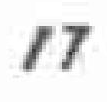17
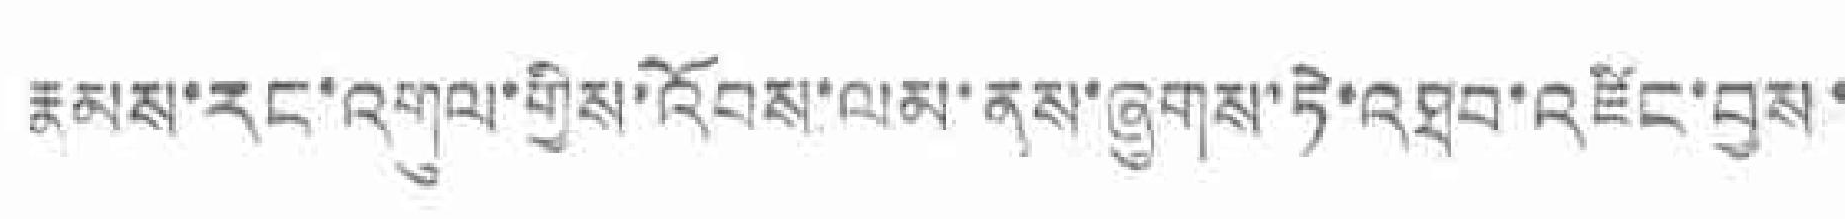རྣམས་རང་འགུལ་གྱིས་འོབས་ལམ་ནས་ཞུགས་ཏེ་འཐབ་འཛོང་བྱས་
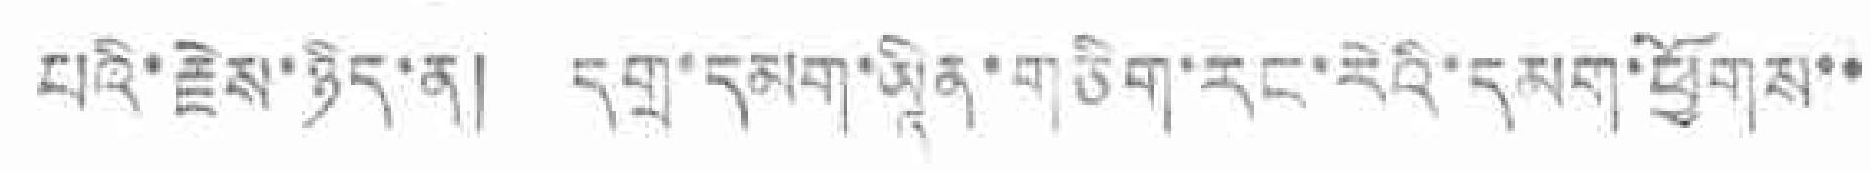པའི་རྗེས་ཉེད་ན། དགྲ་དམག་ཡཱིན་གཅིག་རང་རེའི་དམག་ཕྱོགས་་
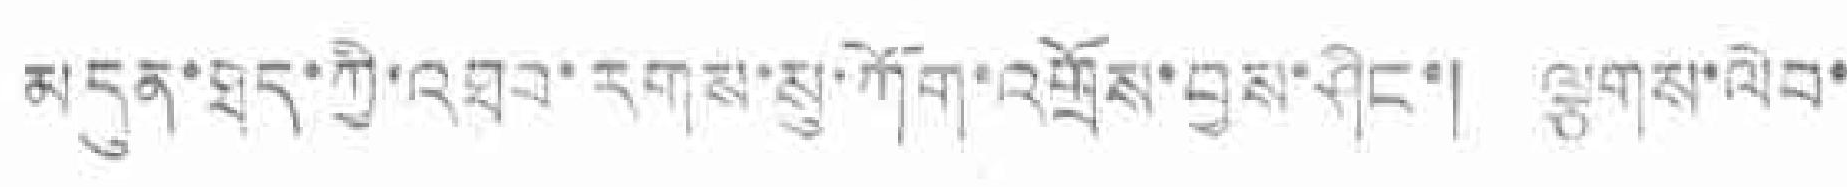མདུན་ཐད་ཀྱི་འཐག་རགས་སུ་ཀོག་འགྲོས་བྱས་ཤིང་། ལྕགས་ལེབ་
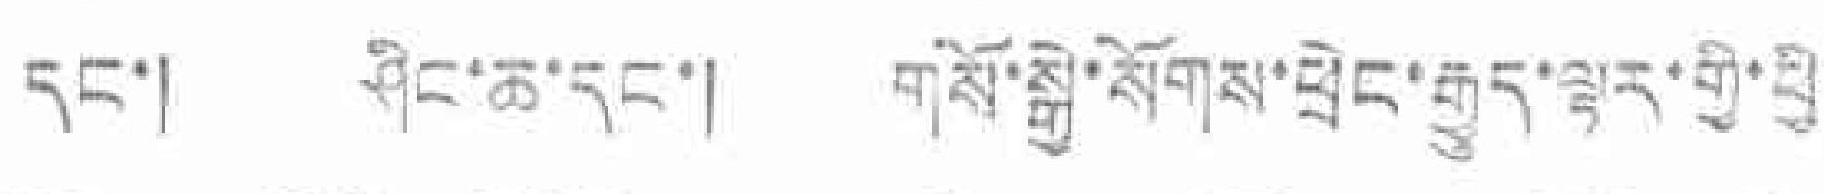དང་། ཤིང་ཆ་དང་། གསོ་སྒྱེ་སོགས་ཕྲེང་རྒྱུད་སྟར་གྱི་ཕྱི་
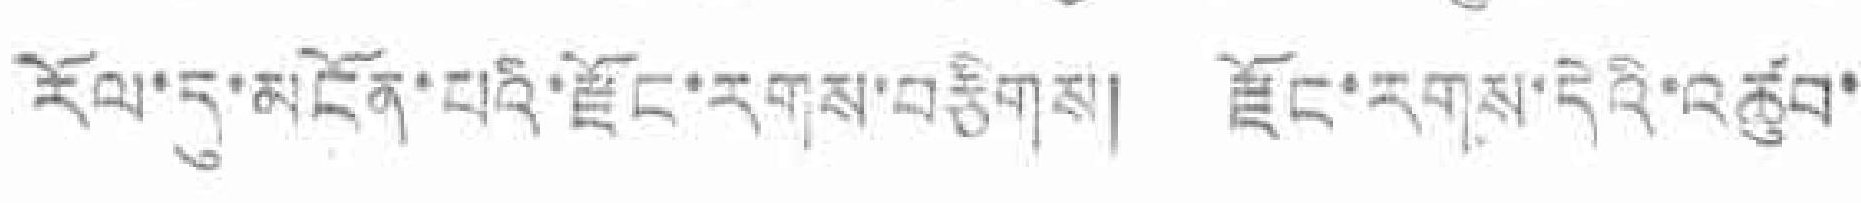རོལ་དུ་མངོན་པའི་རྫོང་རགས་བརྩིགས། རྫོང་རགས་དེའི་འཚུབ་
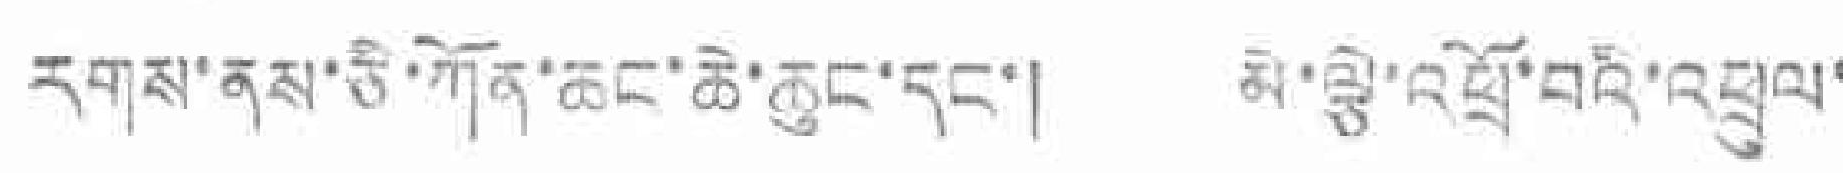རགས་ནས་ཅི་ཀོན་ཆང་ཆེ་ཆུང་དང་། མེ་ལྕེ་འཕྲོ་བའི་འཕྲུལ་
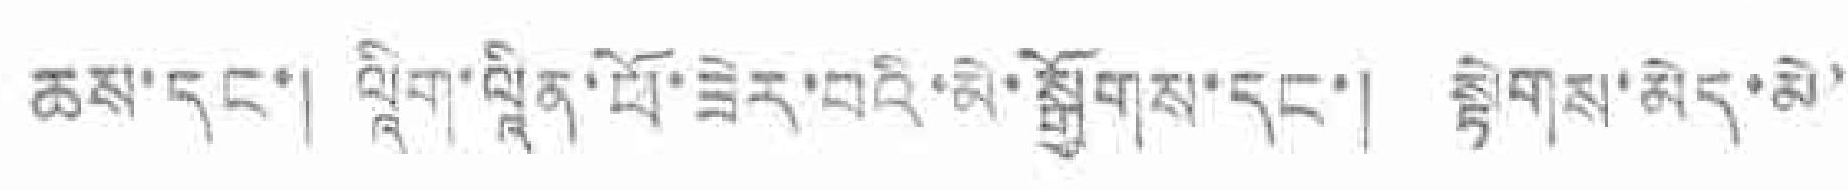ཆས་དང་། ལཱིག་ལཱིན་ཕོ་ཟེར་བའི་མེ་སྒྱོགས་དང་། སྟེགས་མེད་མེ་
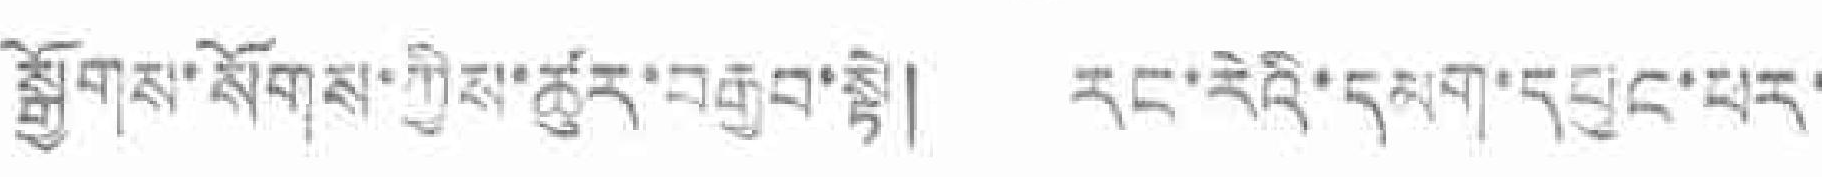སྒྱོགས་སོགས་ཀྱིས་ཚུར་བརྒྱབ་སྟེ། རང་རེའི་དམག་དཔུང་ཕར་
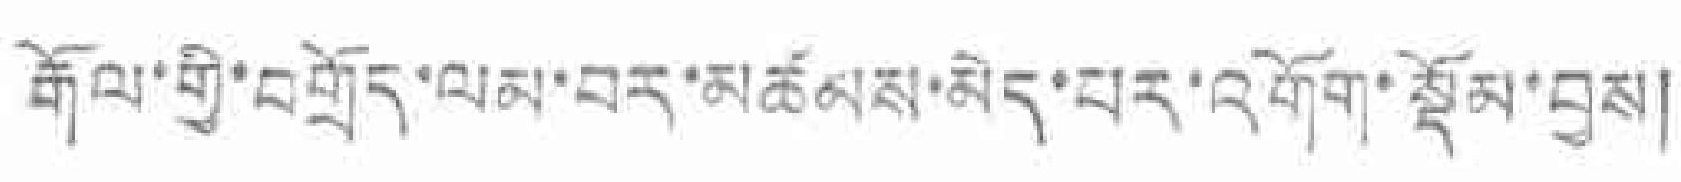རྒོལ་གྱི་བགྲོད་ལམ་བར་མཚམས་མེད་པར་འགོག་སྡོམ་བྱས།
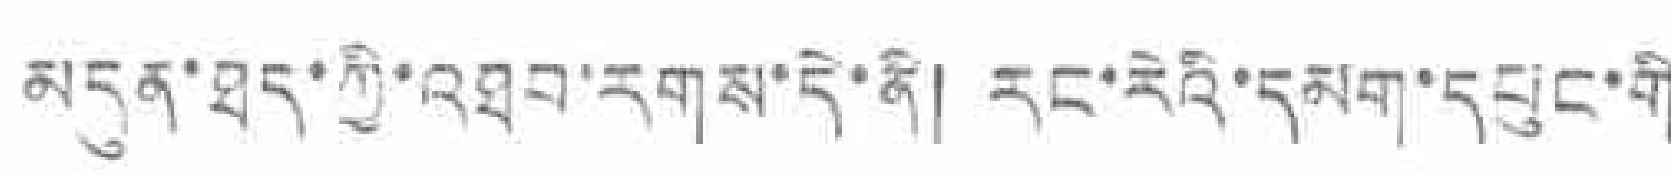མདུན་ཐད་ཀྱི་འཐབ་རགས་དེ་ནི། རང་རེའི་དམག་དཔུང་གི
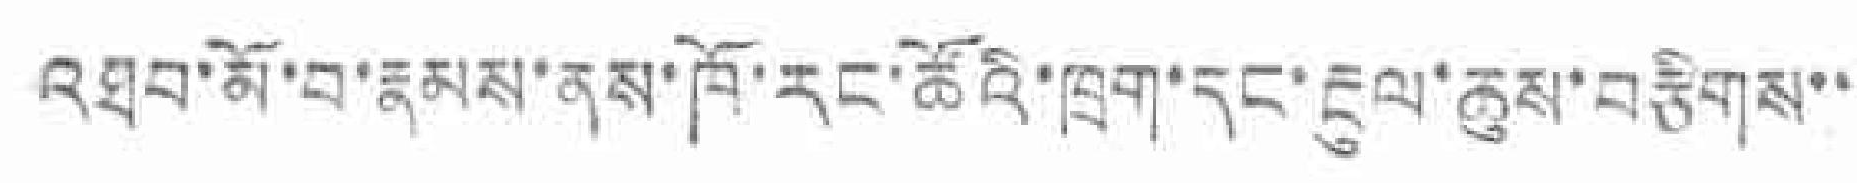འཐབ་མོ་བ་རྣམས་ནས་ཁོ་རང་ཚོའི་ཁྲག་དང་རྔུལ་ཆུས་བརྩིགས་་
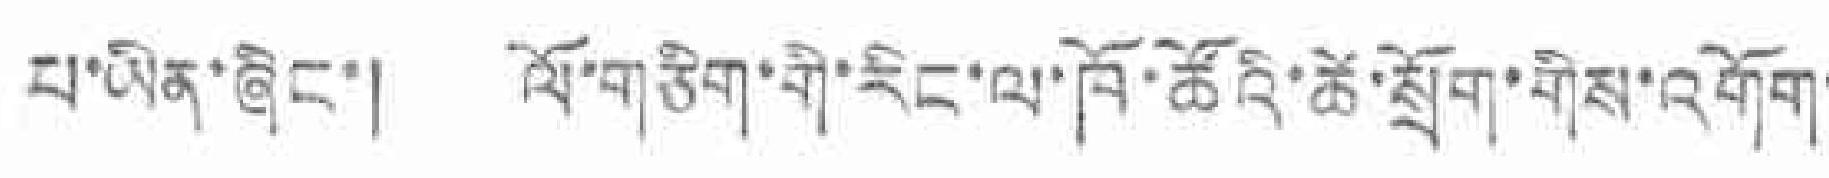པ་ཡིན་ཞིང་། ལོ་གཅིག་གི་རིང་ལ་ཁོ་ཚོའི་ཚེ་སྲོག་གིས་འགོག་
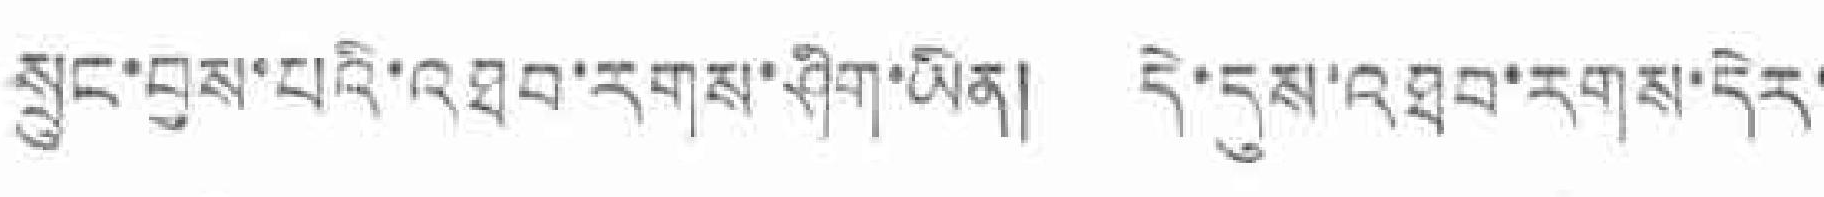སྲུང་བྱས་པའི་འཐབ་རགས་ཤིག་ཡིན། དེ་དུས་འཐབ་དགས་དེར་
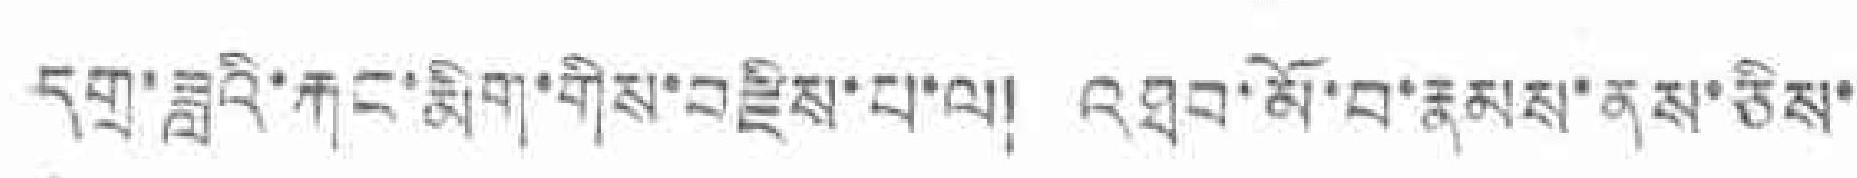དགྲ་ཟླའི་རྐང་རྨིག་གིས་བརྗིས་བ་ལ། འཐབ་མོ་བ་རྣམས་ནས་ཅིས་
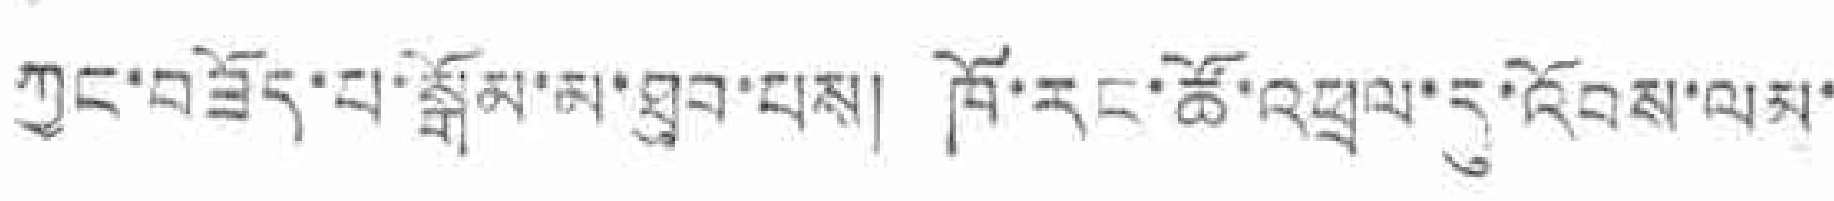ཀྱང་བཟོད་པ་སྒོམ་མ་ཐུབ་པས། ཁོ་རང་ཚོ་འཕྲལ་དུ་འོབས་ལམ་
